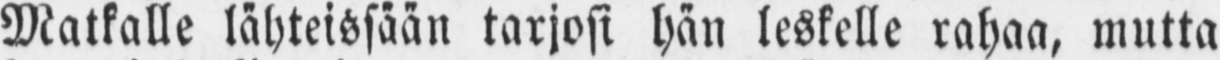Matkalle lähteissään tarjosi hän leskelle rahaa, mutta
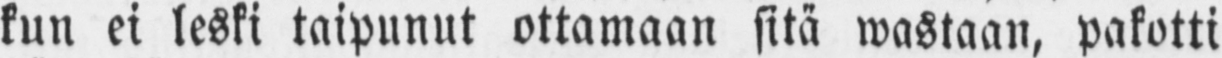kun ei leski taipunut ottamaan sitä wastaan, pakotti
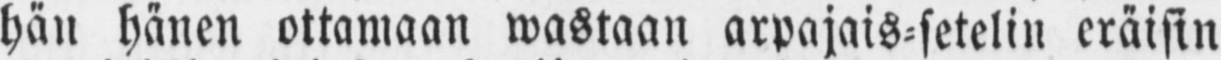hän hänen ottamaan wastaan arpajais-setelin eräisin
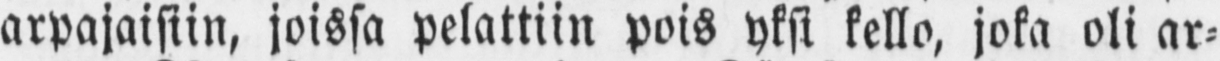arpajaisiin, joissa pelattiin pois yksi kello, joka oli ar-
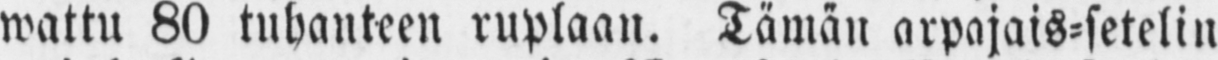wattu 80 tuhanteen ruplaan. Tämän arpajais-setelin
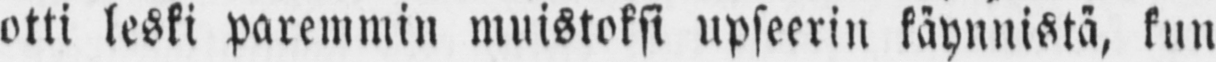otti leski paremmin muistoksi upseerin käynnistä, kun
